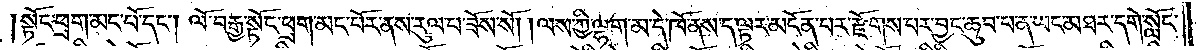སྟོང་ཕྲག་མང་པོ་དང༌། ལོ་བརྒྱ་སྟོང་ཕྲག་མང་པོར་ནས་རུལ་པ་ཟོས་སོ། །ལས་ཀྱི་ལྷག་མ་དེ་ཁོ་ནས་ད་ལྟར་མངོན་པར་རྫོགས་པར་བྱང་ཆུབ་པ་ན་ཡང་མཐར་དགེ་སློང་
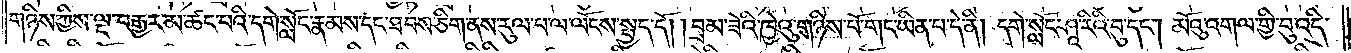གཉིས་ཀྱིས་ལྔ་བརྒྱར་མ་ཚང་བའི་དགེ་སློང་རྣམས་དང་ཐབས་ཅིག་ནས་རུལ་པ་ལ་ལོངས་སྤྱད་དོ། །བྲམ་ཟེའི་ཁྱེའུ་གཉིས་པོ་གང་ཡིན་པ་དེ་ནི། དགེ་སློང་ཤཱ་རིའི་བུ་དང༌། མོའུ་འགལ་གྱི་བུ་འདི་
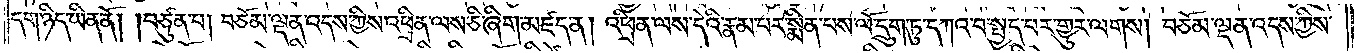དག་ཉིད་ཡིན་ནོ། །བཙུན་པ། བཅོམ་ལྡན་འདས་ཀྱིས་འཕྲིན་ལས་ཅི་ཞིག་མཛད་ན། འཕྲིན་ལས་དེའི་རྣམ་པར་སྨིན་པས་ལོ་དྲུག་ཏུ་དཀའ་བ་སྤྱད་པར་གྱུར་ལགས། བཅོམ་ལྡན་འདས་ཀྱིས་
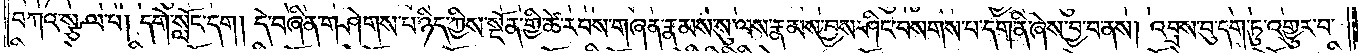བཀའ་སྩལ་པ། དགེ་སློང་དག །དེ་བཞིན་གཤེགས་པ་ཉིད་ཀྱིས་སྔོན་གྱི་ཚེ་རབས་གཞན་རྣམས་སུ་ལས་རྣམས་བྱས་ཤིང་བསགས་པ་དག་ནི་ཞེས་བྱ་བ་ནས། འབྲས་བུ་དག་ཏུ་འགྱུར་བ་
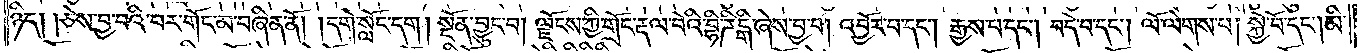ཉིད། །ཅེས་བྱ་བའི་བར་གོང་མ་བཞིན་ནོ། །དགེ་སློང་དག །སྔོན་བྱུང་བ། ལྗོངས་ཀྱི་གྲོང་རྡལ་བེའི་བྷི་ཌིངྒི་ཞེས་བྱ་བ། འབྱོར་པ་དང༌། རྒྱས་པ་དང༌། བདེ་བ་དང༌། ལོ་ལེགས་པ། སྐྱེ་བོ་དང༌། མི་
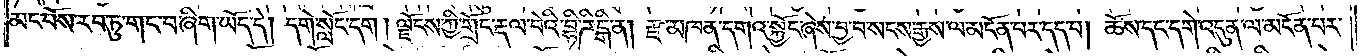མང་པོས་རབ་ཏུ་གང་བ་ཞིག་ཡོད་དེ། དགེ་སློང་དག །ལྗོངས་ཀྱི་གྲོང་རྡལ་བེའི་བྷི་ཌིངྒི་ན། རྫ་མཁན་དགའ་སྐྱོང་ཞེས་བྱ་བ་སངས་རྒྱས་ལ་མངོན་པར་དད་པ། ཆོས་དང་དགེ་འདུན་ལ་མངོན་པར་
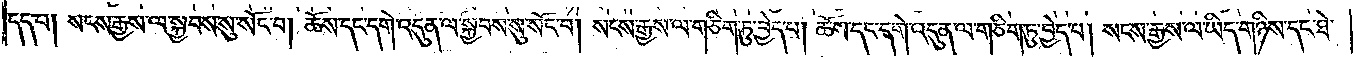དད་པ། སངས་རྒྱས་ལ་སྐྱབས་སུ་སོང་བ། ཆོས་དང་དགེ་འདུན་ལ་སྐྱབས་སུ་སོང་བ། སངས་རྒྱས་ལ་གཅིག་ཏུ་བྱེད་པ། ཆོས་དང་དགེ་འདུན་ལ་གཅིག་ཏུ་བྱེད་པ། སངས་རྒྱས་ལ་ཡིད་གཉིས་དང་ཐེ་
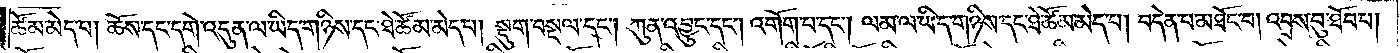ཚོམ་མེད་པ། ཆོས་དང་དགེ་འདུན་ལ་ཡིད་གཉིས་དང་ཐེ་ཚོམ་མེད་པ། སྡུག་བསྔལ་དང༌། ཀུན་འབྱུང་དང༌། འགོག་པ་དང༌། ལམ་ལ་ཡིད་གཉིས་དང་ཐེ་ཚོམ་མེད་པ། བདེན་པ་མཐོང་བ། འབྲས་བུ་ཐོབ་པ།
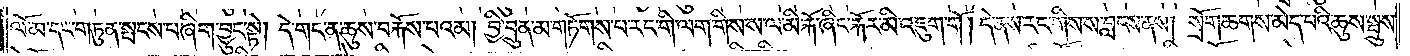ལོ་མ་དང་གཏུན་སྤངས་པ་ཞིག་བྱུང་སྟེ། དེ་གང་ན་ཆུས་བརྐོས་པའམ། བྱི་བྲུན་མ་གཏོགས་པ་རང་གི་ལག་གིས་ས་ལ་མི་རྐོ་ཞིང་རྐོར་མི་འཇུག་གོ །དེ་ནས་རང་གིས་ས་བླངས་ནས། སྲོག་ཆགས་མེད་པའི་ཆུས་སྦྲུས་
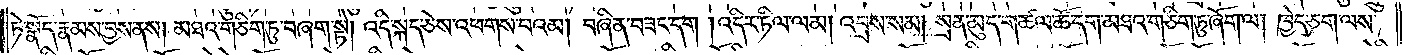ཏེ་སྣོད་རྣམས་བྱས་ནས། མཐའ་གཅིག་ཏུ་བཞག་སྟེ། འདི་སྐད་ཅེས་འཕགས་པའམ། བཞིན་བཟང་དག །འདིར་ཏིལ་ལམ། འབྲས་སམ། སྲན་མུད་ག་ཚལ་ཚོ་དག་མཐའ་གཅིག་ཏུ་ཞོག་ལ། ཁྱེད་ཅག་ལས་
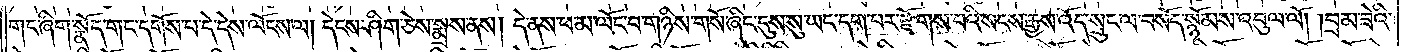གང་ཞིག་སྣོད་གང་དགོས་པ་དེ་དེས་ལོངས་ལ། དེངས་ཤིག་ཅེས་སྨྲས་ནས། དེ་ནས་ཕ་མ་ལོང་བ་གཉིས་གསོ་ཞིང་དུས་སུ་ཡང་དག་པར་རྫོགས་པའི་སངས་རྒྱས་འོད་སྲུང་ལ་བསོད་སྙོམས་འབུལ་ལོ། །བྲམ་ཟེའི་
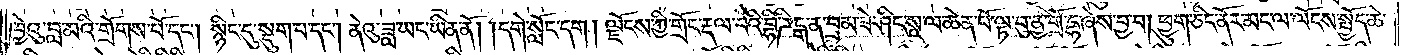ཁྱེའུ་བླ་མའི་གྲོགས་པོ་དང༌། སྙིང་དུ་སྡུག་པ་དང༌། ནེའུ་ཟླ་ཡང་ཡིན་ནོ། །དགེ་སློང་དག །ལྗོངས་ཀྱི་གྲོང་རྡལ་བེའི་བྷི་ཌིངྒ་ན་བྲམ་ཟེ་ཤིང་སཱ་ལ་ཆེན་པོ་ལྟ་བུ་ནྱ་གྲོ་དྷ་ཞེས་བྱ་བ། ཕྱུག་ཅིང་ནོར་མང་ལ་ལོངས་སྤྱོད་ཆེ་
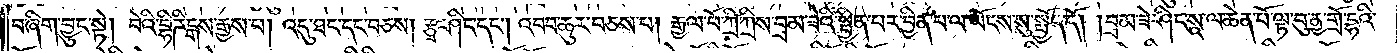བ་ཞིག་བྱུང་སྟེ། བེའི་བྷི་ཌིངྒས་རྒྱས་པ། འདུ་ཐང་དང་བཅས། རྩྭ་ཤིང་དང༌། འབབ་ཆུར་བཅས་པ། རྒྱལ་པོ་ཀྲི་ཀྲིས་བྲམ་ཟེའི་སྦྱིན་པར་བྱིན་པ་ལ་ཡོངས་སུ་སྤྱོད་དོ། །བྲམ་ཟེ་ཤིང་སཱ་ལ་ཆེན་པོ་ལྟ་བུ་ནྱ་གྲོ་དྷའི་
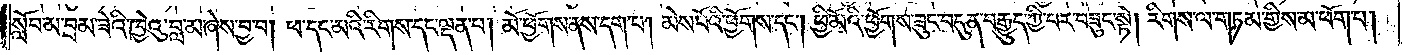སློབ་མ་བྲམ་ཟེའི་ཁྱེའུ་བླ་མ་ཞེས་བྱ་བ། ཕ་དང་མའི་རིགས་དང་ལྡན་པ། མོ་ཕྱོགས་ནས་དག་པ། མེས་པོའི་ཕྱོགས་དང༌། ཕྱི་མོའི་ཕྱོགས་ཟུང་བདུན་བརྒྱུད་ཀྱི་བར་བཟུང་སྟེ། རིགས་ལ་གཏམ་གྱིས་མ་ཕོག་པ།
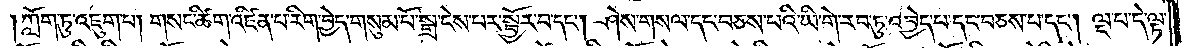།ཀློག་ཏུ་འཇུག་པ། གསང་ཚིག་འཛིན་པ་རིག་བྱེད་གསུམ་པོ་སྒྲ་ངེས་པར་སྦྱོར་བ་དང༌། ཤེས་གསལ་དང་བཅས་པའི་ཡི་གེ་རབ་ཏུ་འབྱེད་པ་དང་བཅས་པ་དང༌། ལྔ་པ་དེ་ལྟ་
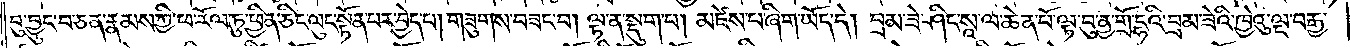བུ་བྱུང་བ་ཅན་རྣམས་ཀྱི་ཕ་རོལ་ཏུ་ཕྱིན་ཅིང་ལུང་སྟོན་པར་བྱེད་པ། གཟུགས་བཟང་བ། ལྟ་ན་སྡུག་པ། མཛེས་པ་ཞིག་ཡོད་དེ། བྲམ་ཟེ་ཤིང་སཱ་ལ་ཆེན་པོ་ལྟ་བུ་ནྱ་གྲོ་དྷའི་བྲམ་ཟེའི་ཁྱེའུ་ལྔ་བརྒྱ་
